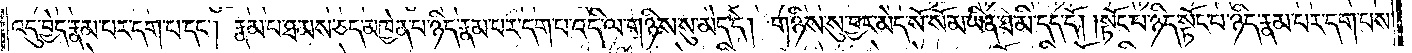འདུ་བྱེད་རྣམ་པར་དག་པ་དང༌། རྣམ་པ་ཐམས་ཅད་མཁྱེན་པ་ཉིད་རྣམ་པར་དག་པ་འདི་ལ་གཉིས་སུ་མེད་དེ། གཉིས་སུ་བྱར་མེད་སོ་སོ་མ་ཡིན་ཐ་མི་དད་དོ། །སྟོང་པ་ཉིད་སྟོང་པ་ཉིད་རྣམ་པར་དག་པས་
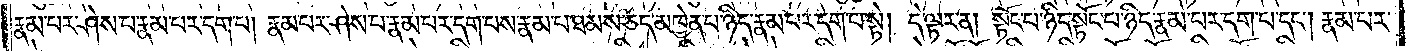རྣམ་པར་ཤེས་པ་རྣམ་པར་དག་པ། རྣམ་པར་ཤེས་པ་རྣམ་པར་དག་པས་རྣམ་པ་ཐམས་ཅད་མཁྱེན་པ་ཉིད་རྣམ་པར་དག་པ་སྟེ། དེ་ལྟར་ན། སྟོང་པ་ཉིད་སྟོང་པ་ཉིད་རྣམ་པར་དག་པ་དང༌། རྣམ་པར་
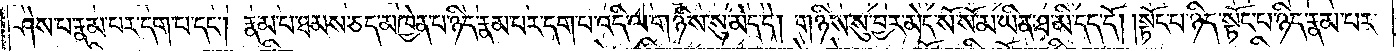ཤེས་པ་རྣམ་པར་དག་པ་དང༌། རྣམ་པ་ཐམས་ཅད་མཁྱེན་པ་ཉིད་རྣམ་པར་དག་པ་འདི་ལ་གཉིས་སུ་མེད་དེ། གཉིས་སུ་བྱར་མེད་སོ་སོ་མ་ཡིན་ཐ་མི་དད་དོ། །སྟོང་པ་ཉིད་སྟོང་པ་ཉིད་རྣམ་པར་
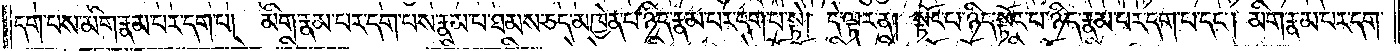དག་པས་མིག་རྣམ་པར་དག་པ། མིག་རྣམ་པར་དག་པས་རྣམ་པ་ཐམས་ཅད་མཁྱེན་པ་ཉིད་རྣམ་པར་དག་པ་སྟེ། དེ་ལྟར་ན། སྟོང་པ་ཉིད་སྟོང་པ་ཉིད་རྣམ་པར་དག་པ་དང༌། མིག་རྣམ་པར་དག་
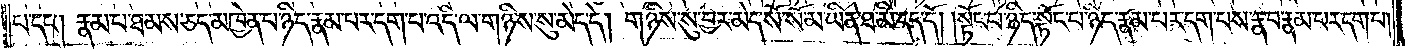པ་དང༌། རྣམ་པ་ཐམས་ཅད་མཁྱེན་པ་ཉིད་རྣམ་པར་དག་པ་འདི་ལ་གཉིས་སུ་མེད་དེ། གཉིས་སུ་བྱར་མེད་སོ་སོ་མ་ཡིན་ཐ་མི་དད་དོ། །སྟོང་པ་ཉིད་སྟོང་པ་ཉིད་རྣམ་པར་དག་པས་རྣ་བ་རྣམ་པར་དག་པ།
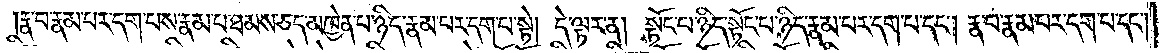རྣ་བ་རྣམ་པར་དག་པས་རྣམ་པ་ཐམས་ཅད་མཁྱེན་པ་ཉིད་རྣམ་པར་དག་པ་སྟེ། དེ་ལྟར་ན། སྟོང་པ་ཉིད་སྟོང་པ་ཉིད་རྣམ་པར་དག་པ་དང༌། རྣ་བ་རྣམ་པར་དག་པ་དང༌།
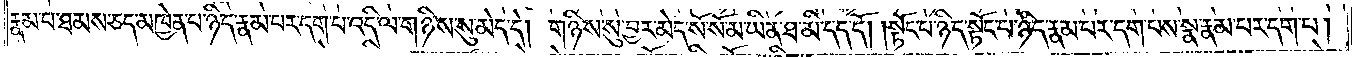རྣམ་པ་ཐམས་ཅད་མཁྱེན་པ་ཉིད་རྣམ་པར་དག་པ་འདི་ལ་གཉིས་སུ་མེད་དེ། གཉིས་སུ་བྱར་མེད་སོ་སོ་མ་ཡིན་ཐ་མི་དད་དོ། །སྟོང་པ་ཉིད་སྟོང་པ་ཉིད་རྣམ་པར་དག་པས་སྣ་རྣམ་པར་དག་པ།
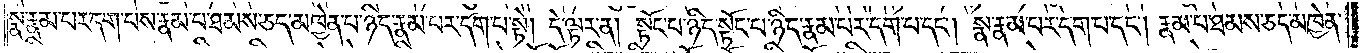སྣ་རྣམ་པར་དག་པས་རྣམ་པ་ཐམས་ཅད་མཁྱེན་པ་ཉིད་རྣམ་པར་དག་པ་སྟེ། དེ་ལྟར་ན། སྟོང་པ་ཉིད་སྟོང་པ་ཉིད་རྣམ་པར་དག་པ་དང༌། སྣ་རྣམ་པར་དག་པ་དང༌། རྣམ་པ་ཐམས་ཅད་མཁྱེན་
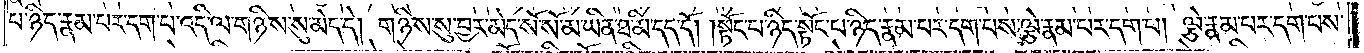པ་ཉིད་རྣམ་པར་དག་པ་འདི་ལ་གཉིས་སུ་མེད་དེ། གཉིས་སུ་བྱར་མེད་སོ་སོ་མ་ཡིན་ཐ་མི་དད་དོ། །སྟོང་པ་ཉིད་སྟོང་པ་ཉིད་རྣམ་པར་དག་པས་ལྕེ་རྣམ་པར་དག་པ། ལྕེ་རྣམ་པར་དག་པས་
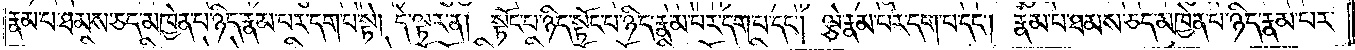རྣམ་པ་ཐམས་ཅད་མཁྱེན་པ་ཉིད་རྣམ་པར་དག་པ་སྟེ། དེ་ལྟར་ན། སྟོང་པ་ཉིད་སྟོང་པ་ཉིད་རྣམ་པར་དག་པ་དང༌། ལྕེ་རྣམ་པར་དག་པ་དང༌། རྣམ་པ་ཐམས་ཅད་མཁྱེན་པ་ཉིད་རྣམ་པར་
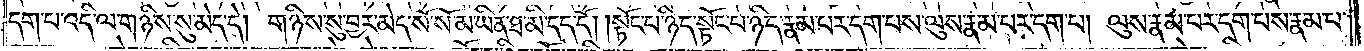དག་པ་འདི་ལ་གཉིས་སུ་མེད་དེ། གཉིས་སུ་བྱར་མེད་སོ་སོ་མ་ཡིན་ཐ་མི་དད་དོ། །སྟོང་པ་ཉིད་སྟོང་པ་ཉིད་རྣམ་པར་དག་པས་ལུས་རྣམ་པར་དག་པ། ལུས་རྣམ་པར་དག་པས་རྣམ་པ་
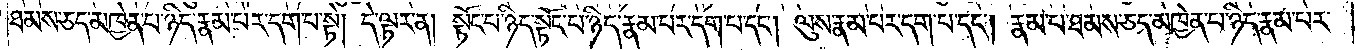ཐམས་ཅད་མཁྱེན་པ་ཉིད་རྣམ་པར་དག་པ་སྟེ། དེ་ལྟར་ན། སྟོང་པ་ཉིད་སྟོང་པ་ཉིད་རྣམ་པར་དག་པ་དང༌། ལུས་རྣམ་པར་དག་པ་དང་༑ རྣམ་པ་ཐམས་ཅད་མཁྱེན་པ་ཉིད་རྣམ་པར་
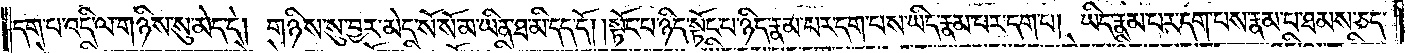དག་པ་འདི་ལ་གཉིས་སུ་མེད་དེ། གཉིས་སུ་བྱར་མེད་སོ་སོ་མ་ཡིན་ཐ་མི་དད་དོ། །སྟོང་པ་ཉིད་སྟོང་པ་ཉིད་རྣམ་པར་དག་པས་ཡིད་རྣམ་པར་དག་པ། ཡིད་རྣམ་པར་དག་པས་རྣམ་པ་ཐམས་ཅད་
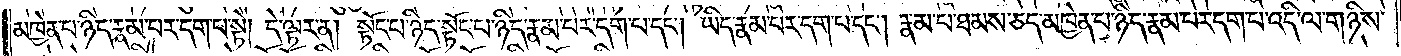མཁྱེན་པ་ཉིད་རྣམ་པར་དག་པ་སྟེ། དེ་ལྟར་ན། སྟོང་པ་ཉིད་སྟོང་པ་ཉིད་རྣམ་པར་དག་པ་དང༌། ཡིད་རྣམ་པར་དག་པ་དང༌། རྣམ་པ་ཐམས་ཅད་མཁྱེན་པ་ཉིད་རྣམ་པར་དག་པ་འདི་ལ་གཉིས་
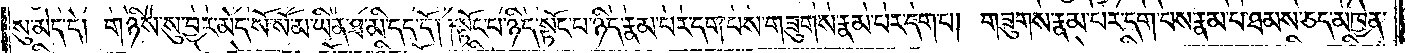སུ་མེད་དེ། གཉིས་སུ་བྱར་མེད་སོ་སོ་མ་ཡིན་ཐ་མི་དད་དོ། །སྟོང་པ་ཉིད་སྟོང་པ་ཉིད་རྣམ་པར་དག་པས་གཟུགས་རྣམ་པར་དག་པ། གཟུགས་རྣམ་པར་དག་པས་རྣམ་པ་ཐམས་ཅད་མཁྱེན་
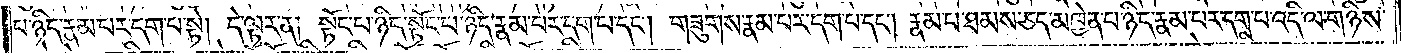པ་ཉིད་རྣམ་པར་དག་པ་སྟེ། དེ་ལྟར་ན། སྟོང་པ་ཉིད་སྟོང་པ་ཉིད་རྣམ་པར་དག་པ་དང༌། གཟུགས་རྣམ་པར་དག་པ་དང༌། རྣམ་པ་ཐམས་ཅད་མཁྱེན་པ་ཉིད་རྣམ་པར་དག་པ་འདི་ལ་གཉིས་
